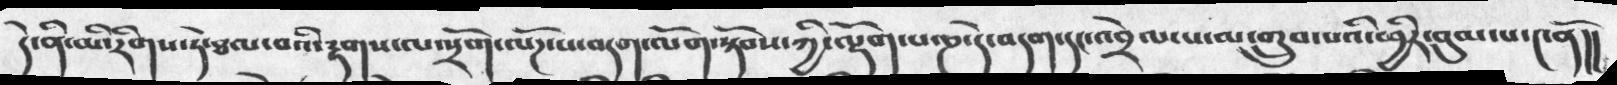དེ་མནི་མི་རིགས་ཏེ་ཐལ་བའི་རྟོགས་ལ་སྲོག་ལོཌ་པ་བདག་ལོག་སྟོབས་ཀྱི་ལྡོག་པ་ཎ་དེ་བདག་དང་འབྲེལ་པ་ལ་གྲུབ་པའི་ཕྱིར་བུམ་པ་༤ནོ།།
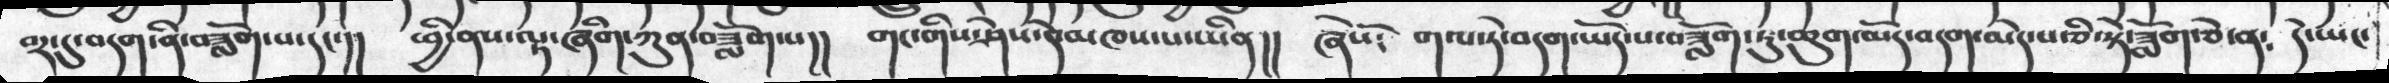བར་དུ་བདག་གི་བཟློག་པ་དང་།།  ཕྱི་ནས་ལྟ་ཞིག་ཀུན་བཟློག་པ།།  གང་གིས་ཤེས་དེ་མཁས་པ་ཡིན།།  ཞེསོ༴  གལ་ཏེ་བདག་ཡོད་པ་བཟློག་ཏུ་ཆུག་མོད་བདག་མེད་པ་ཅི་སྟེ་ཟློག་ཅེ་ན༴   དེ་ཡང་
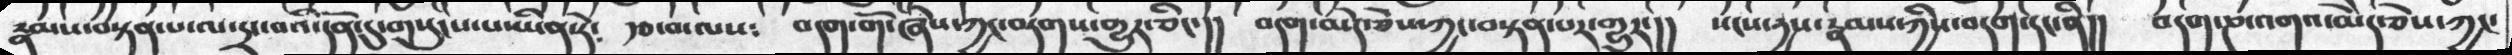རྣམས་བསྟན་པ་ལ་དྲང་བའི་དོན་དུ་གསུངས་པ་ཡིན་སྟེ༴   རྩ་བ་ལས༴   བདག་གོ་ཞེས་ཀྱང་བདགས་གྱུར་ཅིང་།།   བདག་མེད་ཅེས་ཀྱང་བསྟན་པར་གྱུར་།།  སངས་དྱས་རྣམས་ཀྱིས་བདག་དང་ནི།།   བདག་ཎ་འགལ་མེད་ཅེས་ཀྱང་
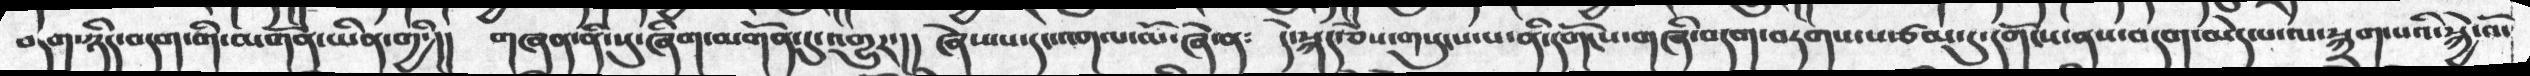བདག་ཉིད་དག་གི་མགོན་ཡིན་གྱི་།།  གཞན་ནི་སུ་ཞིག་མགོན་དུ་གྱུར་།།  ཞེས་པ་དང་འགལ་ལོ་ཞེ་ན༴  དེ་སྐད་ཅེས་གསུངས་པ་ནི་དགོངས་པ་གཞི་བདག་བཏགས་པ་ཙམ་དུ་དགོངས་ནས་བདག་མེད་པ་ལ་སྐྲག་པའི་སྐྱེ་བོ་
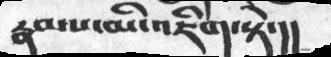རྣམས་མི་འཇིག་སྟེ་།།
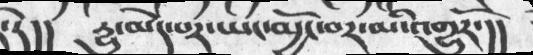་རེ།།  དྱུ་མེད་པར་ཡང་མྱོང་བར་མི་འགྱུརོ་།།
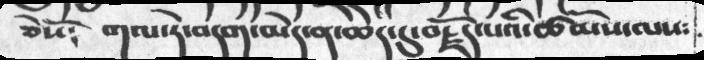ཅེསོ༴  གལ་ཏེ་བདག་མེད་ན་ཆད་དུ་བརྗོད་པའི་ཚོམས་ལས༴
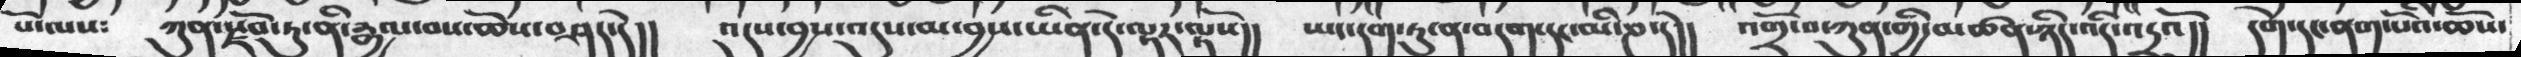པོ་ལས༴  ཀུན་རྫོབ་ཏུ་ནི་རྒྱལ་བས་ཆོས་བཤད་དེ།།  འདུས་བྱས་འདུས་མ་བྱས་ཡིན་དེ་ལྟར་ལྟསོ།།  ཡང་དག་ཏུ་ན་བདག་དང་མི་ཎསྟེ།།   འགྲོ་བ་ཀུན་གྱི་མཚན་ཉིད་འདི་འདྲའོ།།   དགེ་དང་ནག་པོའི་ཆོས་
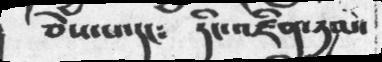ཅེས་པ་དང༴   དིང་འཛིན་དྱམ་
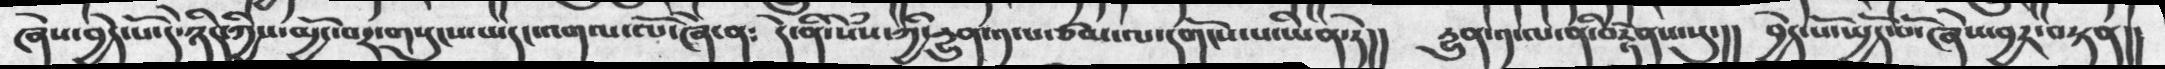ཞེས་བྱེད་པོ་དེ་ཉིད་ཀྱིས་མྱོང་བར་གསུངས་པ་དང་འགལ་ལོ་ཞེ་ན༴  དེ་ནི་སེཾས་ཀྱི་དྱུན་༡་པ་ཙམ་ལ་དགོངས་པ་ཡིན་ཏེ།།  དྱུན་༡་ལ་ནི་བརྟེགས་སུ་།།  བྱེད་པོ་སྤྱོད་པོ་ཞེས་བྱར་བསྟན།།
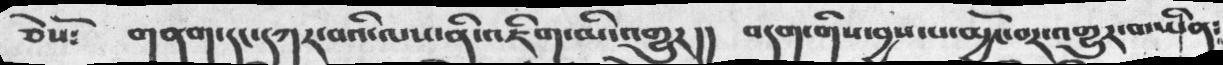ཅེསོ༴  གནག་དང་དཀར་བའི་ལས་ནི་འཇིག་མི་འགྱུར།།  བདག་གིས་བྱས་པ་མྱོང་བར་འགྱུར་བ་ཡིན༴
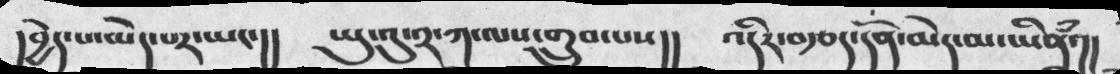དབྱེད་པ་མེད་པར་ཡང་།།  ཡུ་འུ་༢་ཀ་ལས་གྲུབ་པས།།  འདིར་བརྩད་དོན་མེད་མ་ཡིནཾ།།
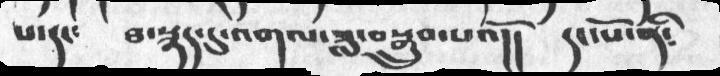པ་དང༴   ཐ་སྙད་དུ་འགལ་ཟླ་སྒྲུབ་པའོ།།   དང་པོ་ནི༴
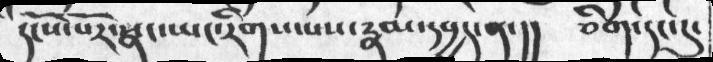དངོས་པོར་སྣང་ཡང་རིག་པས་རྣམ་དཔྱད་ན་།།  ཅིག་དང་དུ་
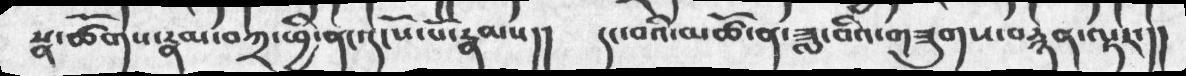སྣ་ཚོགས་རྣམ་བཀྲ་ཕྱི་ནང་དངོས་པོ་རྣམས།།   དང་བའི་མཚོ་ན་ཟླ་བའི་གཟུགས་བརྙན་ལྟར་།།
